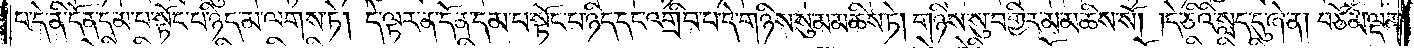པ་དེ་ནི་དོན་དམ་པ་སྟོང་པ་ཉིད་མ་ལགས་ཏེ། དེ་ལྟར་ན་དོན་དམ་པ་སྟོང་པ་ཉིད་དང་འགྲིབ་པ་དེ་གཉིས་སུ་མ་མཆིས་ཏེ། གཉིས་སུ་བགྱིར་མ་མཆིས་སོ། །དེ་ཅིའི་སླད་དུ་ཞེ་ན། བཅོམ་ལྡན་
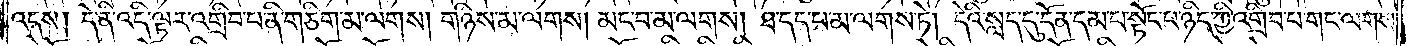འདས། དེ་ནི་འདི་ལྟར་འགྲིབ་པ་ནི་གཅིག་མ་ལགས། གཉིས་མ་ལགས། མང་བ་མ། ལགས་ཐ་དད་པ་མ་ལགས་ཏེ། དེའི་སླད་དུ་དོན་དམ་པ་སྟོང་པ་ཉིད་ཀྱི་འགྲིབ་པ་གང་ལགས་
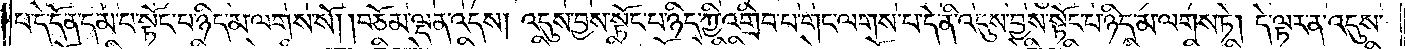པ་དེ་དོན་དམ་པ་སྟོང་པ་ཉིད་མ་ལགས་སོ། །བཅོམ་ལྡན་འདས། འདུས་བྱས་སྟོང་པ་ཉིད་ཀྱི་འགྲིབ་པ་གང་ལགས་པ་དེ་ནི་འདུས་བྱས་སྟོང་པ་ཉིད་མ་ལགས་ཏེ། དེ་ལྟར་ན་འདུས་
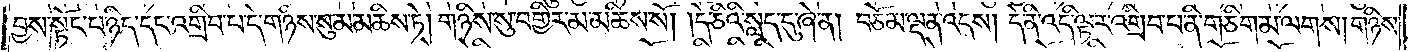བྱས་སྟོང་པ་ཉིད་དང་འགྲིབ་པ་དེ་གཉིས་སུ་མ་མཆིས་ཏེ། གཉིས་སུ་བགྱིར་མ་མཆིས་སོ། །དེ་ཅིའི་སླད་དུ་ཞེ་ན། བཅོམ་ལྡན་འདས་དེ་ནི་འདི་ལྟར་འགྲིབ་པ་ནི་གཅིག་མ་ལགས། གཉིས་
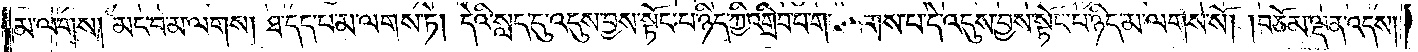མ་ལགས། མང་བ་མ་ལགས། ཐ་དད་པ་མ་ལགས་ཏེ། དེའི་སླད་དུ་འདུས་བྱས་སྟོང་པ་ཉིད་ཀྱི་འགྲིབ་པ་གང་ལགས་པ་དེ་འདུས་བྱས་སྟོང་པ་ཉིད་མ་ལགས་སོ། །བཅོམ་ལྡན་འདས།
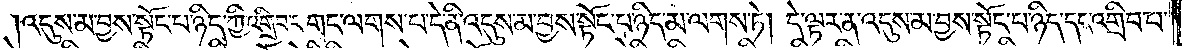འདུས་མ་བྱས་སྟོང་པ་ཉིད་ཀྱི་འགྲིབ་པ་གང་ལགས་པ་དེ་ནི་འདུས་མ་བྱས་སྟོང་པ་ཉིད་མ་ལགས་ཏེ། དེ་ལྟར་ན་འདུས་མ་བྱས་སྟོང་པ་ཉིད་དང་འགྲིབ་པ་
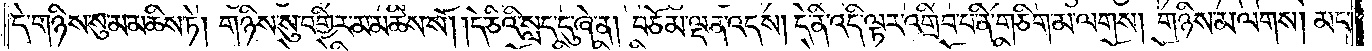དེ་གཉིས་སུ་མ་མཆིས་ཏེ། གཉིས་སུ་བགྱིར་མ་མཆིས་སོ། །དེ་ཅིའི་སླད་དུ་ཞེ་ན། བཅོམ་ལྡན་འདས། དེ་ནི་འདི་ལྟར་འགྲིབ་པ་ནི་གཅིག་མ་ལགས། གཉིས་མ་ལགས། མང་
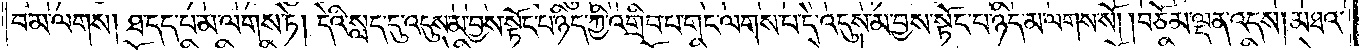བ་མ་ལགས། ཐ་དད་པ་མ་ལགས་ཏེ། དེའི་སླད་དུ་འདུས་མ་བྱས་སྟོང་པ་ཉིད་ཀྱི་འགྲིབ་པ་གང་ལགས་པ་དེ་འདུས་མ་བྱས་སྟོང་པ་ཉིད་མ་ལགས་སོ། །བཅོམ་ལྡན་འདས། མཐའ་
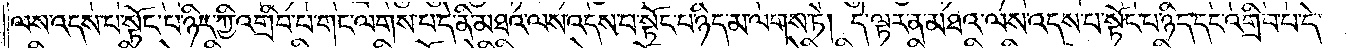ལས་འདས་པ་སྟོང་པ་ཉིད་ཀྱི་འགྲིབ་པ་གང་ལགས་པ་ད་ནི་མཐའ་ལས་འདས་པ་སྟོང་པ་ཉིད་མ་ལགས་ཏེ། དེ་ལྟར་ན་མཐའ་ལས་འདས་པ་སྟོང་པ་ཉིད་དང་འགྲིབ་པ་དེ་
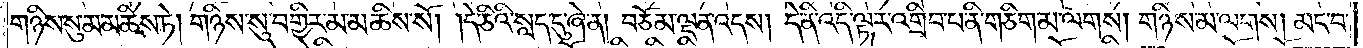གཉིས་སུ་མ་མཆིས་ཏེ་གཉིས་སུ་བགྱིར་མ་མཆིས་སོ། །དེ་ཅིའི་སླད་དུ་ཞེ་ན། བཅོམ་ལྡན་འདས་དེ་ནི་འདི་ལྟར་འགྲིབ་པ་ནི་གཅིག་མ་ལགས་གཉིས་མ་ལགས་མང་བ་
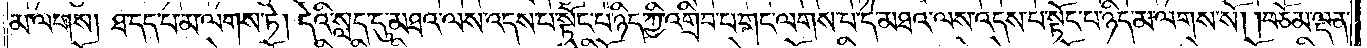མ་ལགས་ཐ་དད་པ་མ་ལགས་ཏེ། དེའི་སླད་དུ་མཐའ་ལས་འདས་པ་སྟོང་པ་ཉིད་ཀྱི་འགྲིབ་པ་གང་ལགས་པ་དེ་མཐའ་ལས་འདས་པ་སྟོང་པ་ཉིད་མ་ལགས་སོ། །བཅོམ་ལྡན་
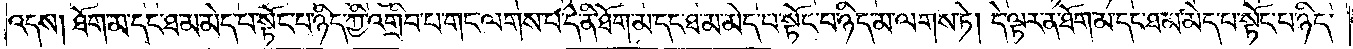འདས་ཐོག་མ་དང་ཐ་མ་མེད་པ་སྟོང་པ་ཉིད་ཀྱི་འགྲིབ་པ་གང་ལགས་པ་དེ་ནི་ཐོག་མ་དང་ཐ་མ་མེད་པ་སྟོང་པ་ཉིད་མ་ལགས་ཏེ། དེ་ལྟར་ན་ཐོག་མ་དང་ཐ་མ་མེད་པ་སྟོང་པ་ཉིད་
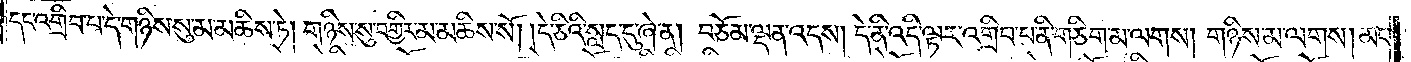དང་འགྲིབ་པ་དེ་གཉིས་སུ་མ་མཆིས་ཏེ། གཉིས་སུ་བགྱིར་མ་མཆིས་སོ། །དེ་ཅིའི་སླད་དུ་ཞེ་ན། བཅོམ་ལྡན་འདས། དེ་ནི་འདི་ལྟར་འགྲིབ་པ་ནི་གཅིག་མ་ལགས། གཉིས་མ་ལགས། མང་
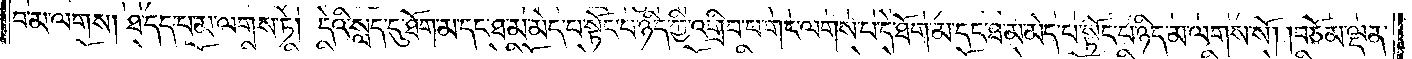བ་མ་ལགས། ཐ་དད་པ་མ་ལགས་ཏེ། དེའི་སླད་དུ་ཐོག་མ་དང་ཐ་མ་མེད་པ་སྟོང་པ་ཉིད་ཀྱི་འགྲིབ་པ་གང་ལགས་པ་དེ་ཐོག་མ་དང་ཐ་མ་མེད་པ་སྟོང་པ་ཉིད་མ་ལགས་སོ། །བཅོམ་ལྡན་
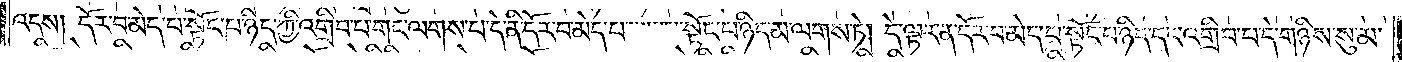འདས། དོར་བ་མེད་པ་སྟོང་པ་ཉིད་ཀྱི་འགྲིབ་པ་གང་ལགས་པ་དེ་ནི་དོར་བ་མེད་པ་སྟོང་པ་ཉིད་མ་ལགས་ཏེ། དེ་ལྟར་ན་དོར་བ་མེད་པ་སྟོང་པ་ཉིད་དང་འགྲིབ་པ་དེ་གཉིས་སུ་མ་
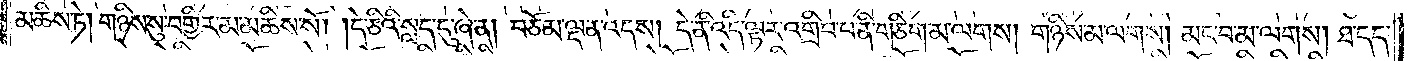མཆིས་ཏེ། གཉིས་སུ་བགྱིར་མ་མཆིས་སོ། །དེ་ཅིའི་སླད་དུ་ཞེ་ན། བཅོམ་ལྡན་འདས། དེ་ནི་འདི་ལྟར་འགྲིབ་པ་ནི་གཅིག་མ་ལགས། གཉིས་མ་ལགས། མང་བ་མ་ལགས། ཐ་དད་
